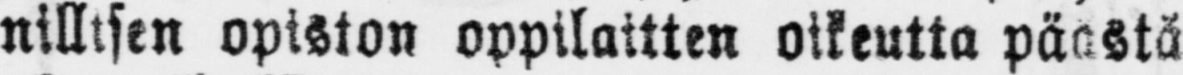nilltsen opiston oppilaitten oikeutta päästä
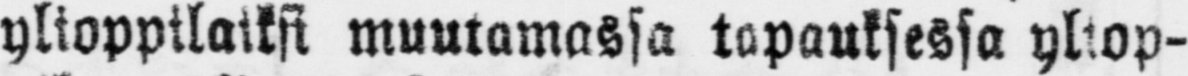ylioppilaiksi muutamassa tapauksessa yliop-
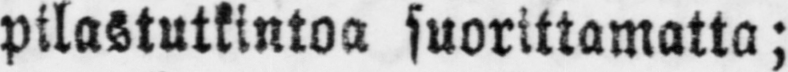pilastutkintoa suorittamatta;
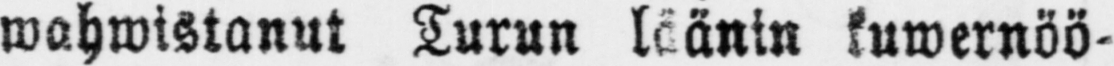wahwistanut Turun läänin kuwernöö-
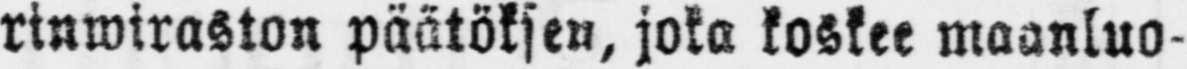rinwiraston päätöksen, joka koskee maanluo-
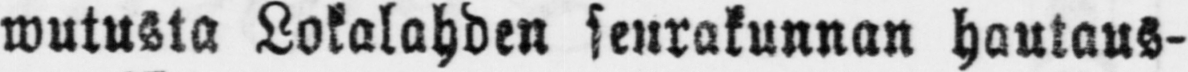wutusta Lokalahden seurakunnan hautaus-
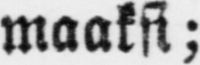maaksi;
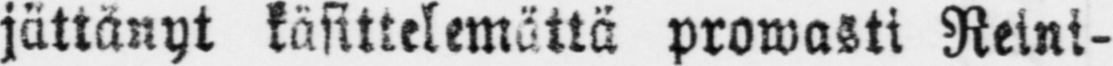jättänyt käsittelemättä prowasti Reini-
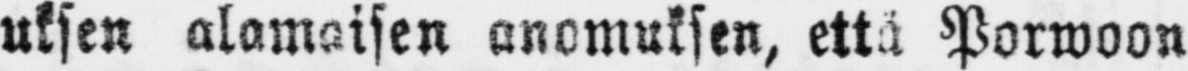uksen alamaisen anomuksen, että Porwoon
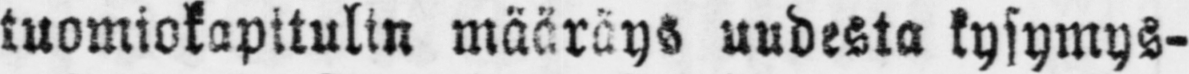tuomiokapitulin määräys uudesta kysymys-
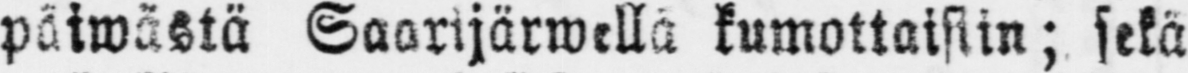päiwästä Saarijärwellä kumottaisiin; sekä
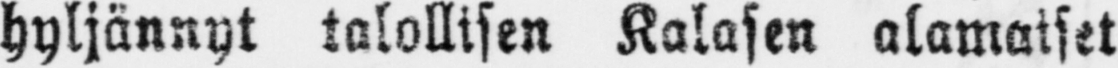hyljännyt talollisen Kalasen alamaiset
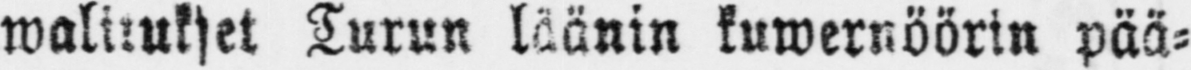walitukset Turun läänin kuwernöörin pää-
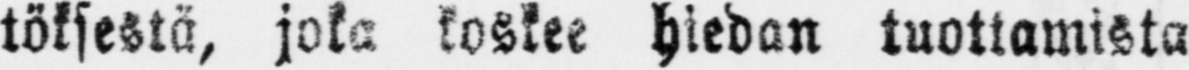töksestä, joka koskee hiedan tuottamista
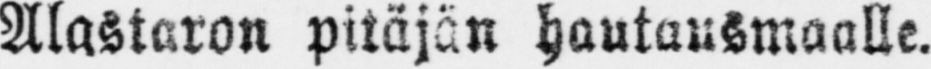Alastaron pitäjän hautausmaalle.
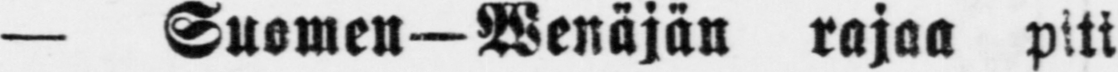— Suomen—Wenäjän rajaa piti
